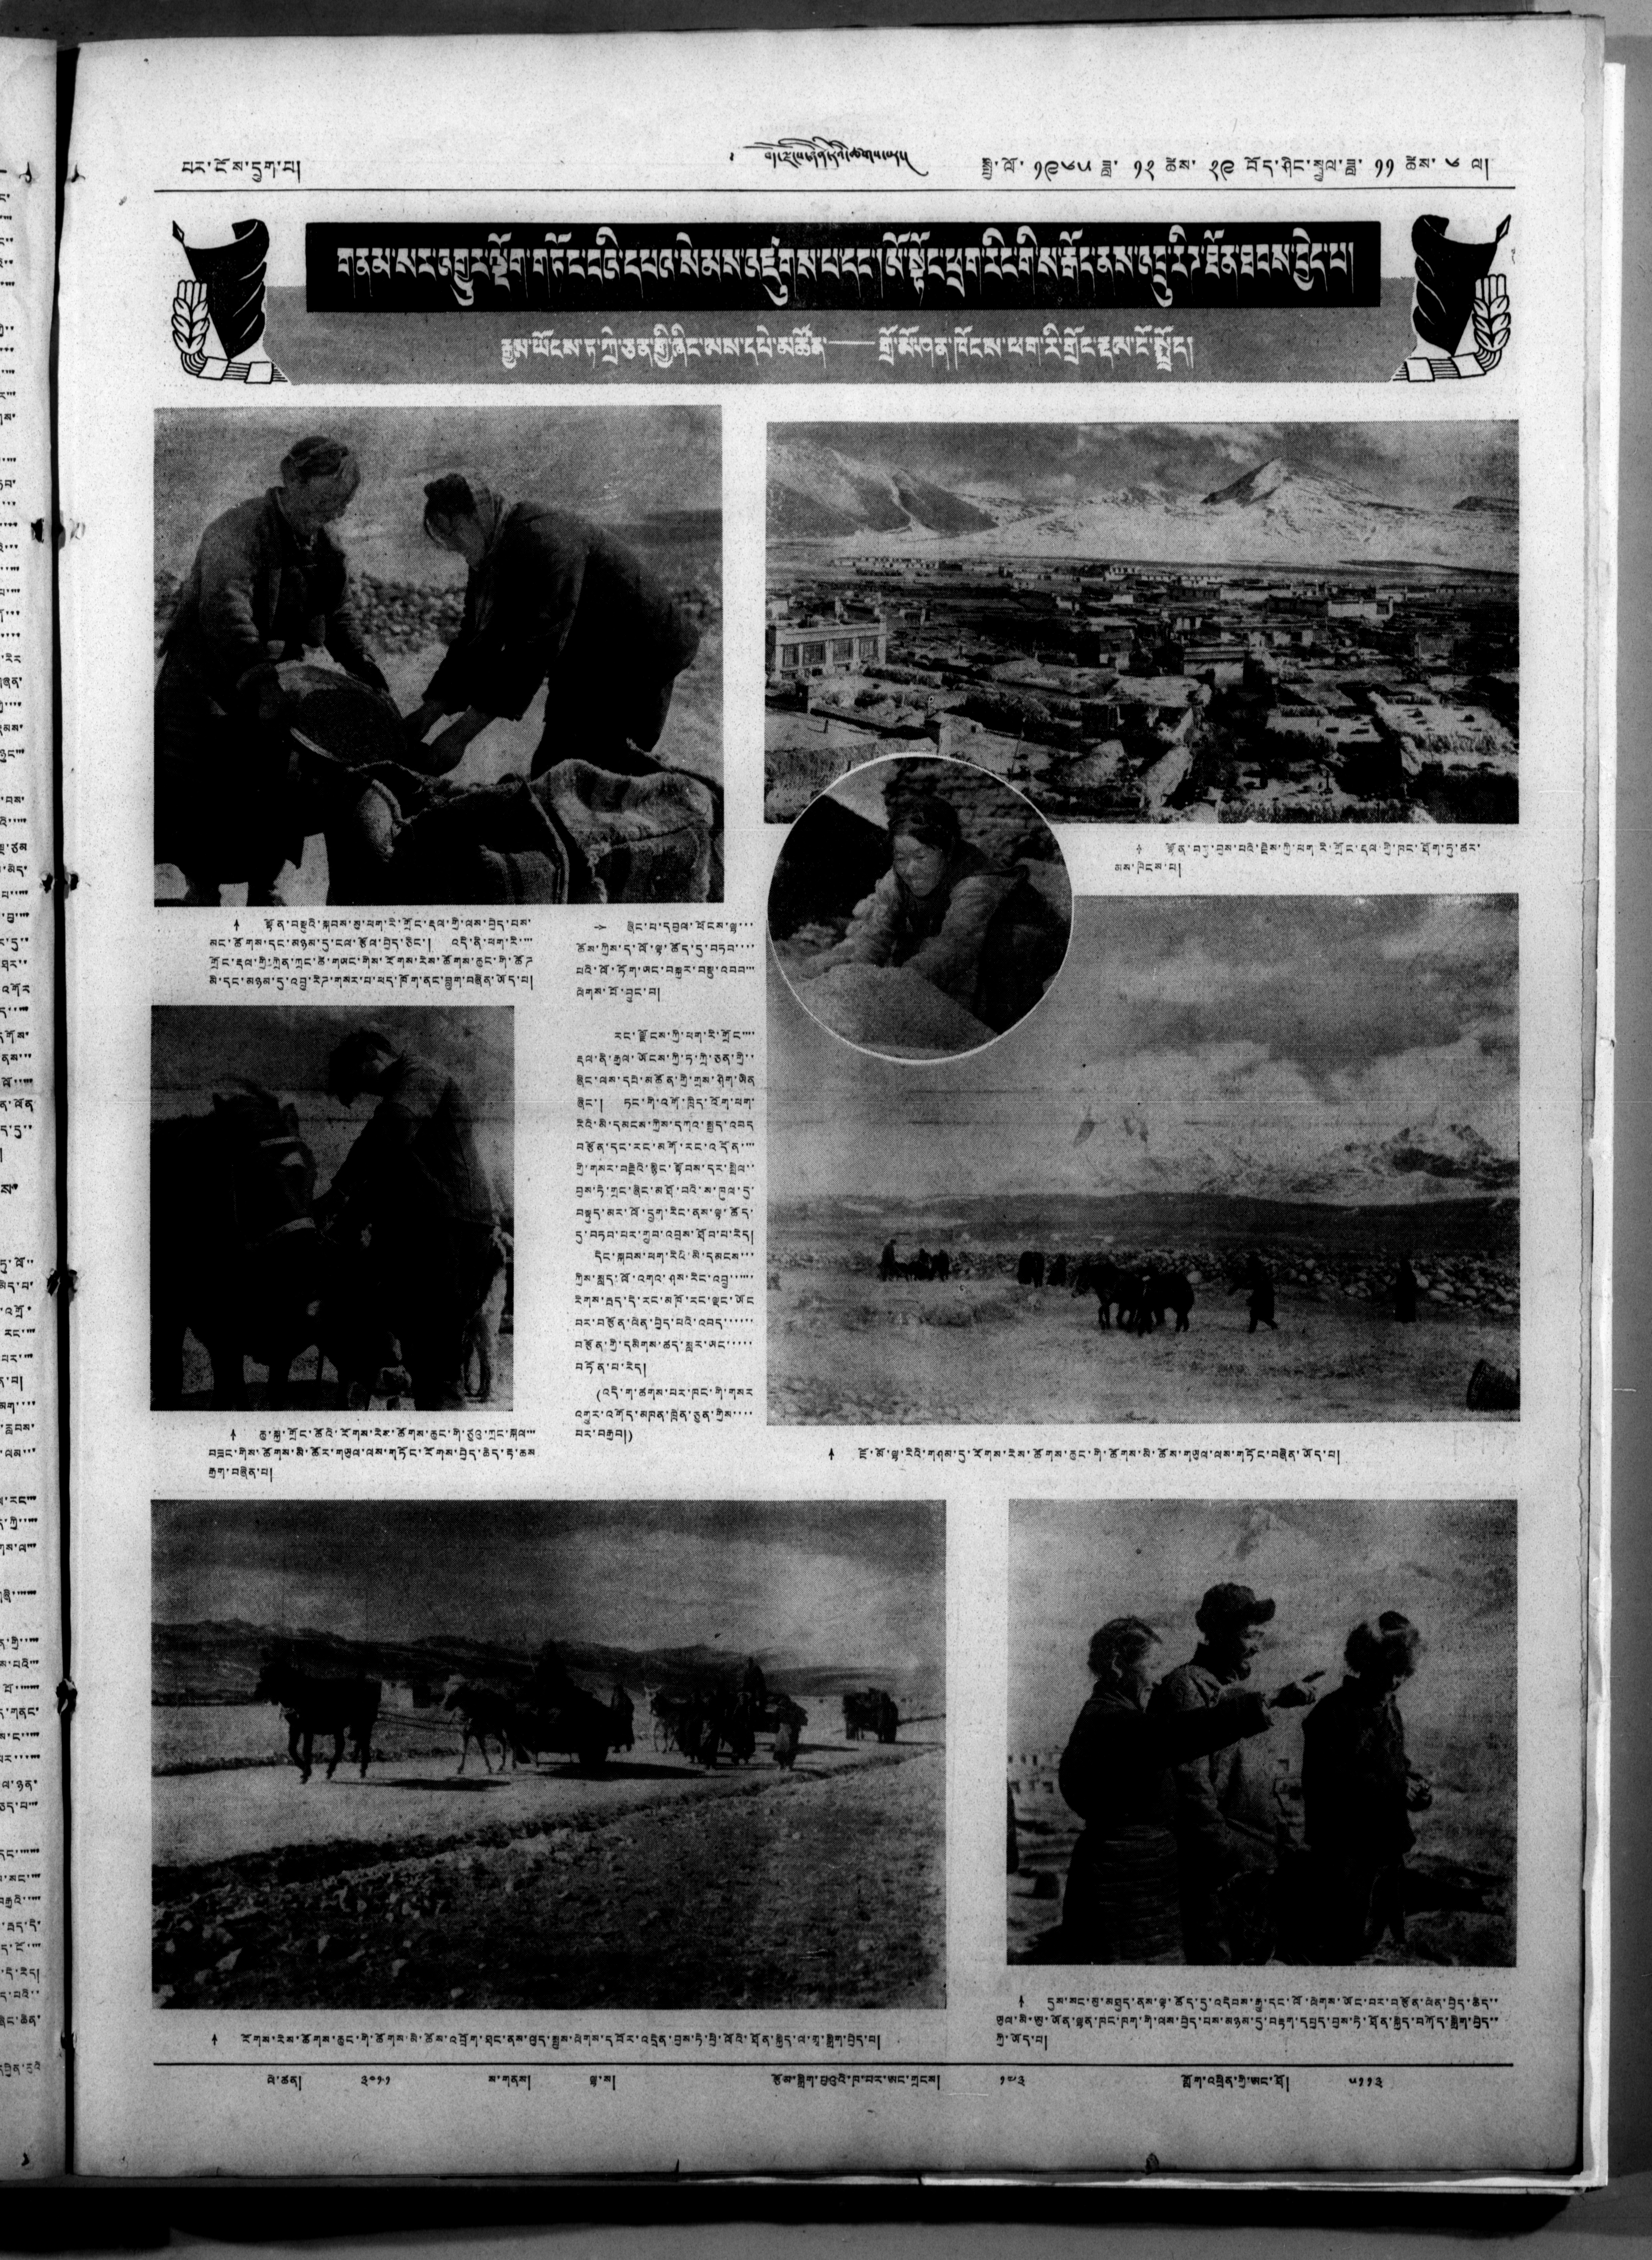པར་ངོས་དྲུག་པ། ༄༅། བོད་ལྗོངས་ཉིན་རེའི་ཚགས་པར། སྤྱི་ལོ་ ༡༩༦༥ ཟླ་ ༡༢ ཚེས་ ༢༩ བོད་ཤིང་སྦྲུལ་ཟླ་ ༡༡ ཚེས་ ༦ ལ།
གནམ་སར་འགྱུར་ལྡོག་གཏོང་བའི་དཔའ་སེམས་འཛུགས་པ་དང་། ལོ་སྟོང་ཕྲག་རིང་གི་ས་རྒོད་ནས་འབྲུ་རིཌ་ཐོན་ཐབས་བྱེད་པ།
རྒྱལ་ཡོངས་ཏ་ཀྲེ་ཅན་གྱི་ཞིང་ལས་དཔེ་མཚོན་ — གྲོ་མོ་ཤན་ཁོངས་ཕག་རི་གྲོང་རྡལ་ངོ་སྤྲོད།
↑ སྟོན་བསྡུའི་སྐབས་སུ་ཕག་རི་གྲོང་རྡལ་གྱི་ལས་བྱེད་པས་
མང་ཚོགས་དང་མཉམ་དུ་ངལ་རྩོལ་བྱེད་ཅིང་། འདི་ནི་ཕག་རི་་་་
གྲོང་རྡལ་གྱི་ཀྲེན་ཀྲང་ཚེ་གཡང་གིས་རོགས་རེས་ཚོགས་ཆུང་གི་ཚོཌ
མི་དང་མཉམ་དུ་འབྲུ་རིཌ་གསར་པ་ཕད་ཁོག་ནང་བླུག་བཞིན་ཡོད་པ།
↑ ཆུ་སྐྱ་གྲོང་ཚོའི་རོགས་རེས་ཚོགས་ཆུང་གི་ཙུའུ་ཀྲང་སྐལ་་་
བཟང་གིས་ཚོགས་མི་ཚོར་གཡུལ་ལས་གཏོང་རོགས་བྱེད་ཆེད་རྟ་ཆས
རྒྱག་བཞིན་པ།
↑ རོགས་རེས་ཚོགས་ཆུང་གི་ཚོགས་མི་ཚོས་འབྲོག་ཐང་ནས་ལུད་སྤུས་ལེགས་དབོར་འདྲེན་བྱས་ཏེ་ཕྱི་ལོའི་ཐོན་སྐྱེད་ལ་གྲྭ་སྒྲིག་བྱེད་པ།
→ ཞིང་པ་དབུལ་ཕོངས་ལྷ་་་
ཆོས་ཀྱིས་ད་ལོ་ལྟ་ཚོད་དུ་བཏབ་་་་
པའི་ལོ་ཏོག་ཡང་བསྐྱར་བསྡུ་འབབ་་་
ལེགས་པོ་བྱུང་བ།
རང་ལྗོངས་ཀྱི་ཕག་རི་གྲོང་་་་
རྡལ་ནི་རྒྱལ་ཡོངས་ཀྱི་ཏ་ཀྲེ་ཅན་གྱི་་
ཞིང་ལས་དཔེ་མཚོན་གྱི་གྲས་ཤིག་ཡིན
ཞིང་། ཏང་གི་འགོ་ཁྲིད་འོག་ཕག་
རིའི་མི་དམངས་ཀྱིས་དཀའ་སྤྱད་འབད་
བརྩོན་དང་རང་མགོ་རང་འདོན་་་་
གྱི་གསར་བརྗེའི་སྙིང་སྟོབས་དར་སྤེལ་་
བྱས་ཏེ་གྲང་ཞིང་མཐོ་བའི་ས་ཁུལ་དུ་
བསྟུད་མར་ལོ་དྲུག་རིང་ནས་ལྟ་ཚོད་
དུ་བཏབ་པར་གྲུབ་འབྲས་ཐོབ་པ་རེད།
དེང་སྐབས་ཕག་རིའི་མི་དམངས་་་
ཀྱིས་སླད་ལོ་འགའ་ཤས་རིང་འབྲུ་་་་་་
རིགས་རྦད་དེ་རང་མཁོ་རང་ལྡང་ཡོང
བར་བརྩོན་ལེན་བྱེད་པའི་འབད་་་་་་
བརྩོན་གྱི་དམིགས་ཚད་སླར་ཡང་་་་་
བཏོན་པ་རེད།
(འདི་ག་ཚགས་པར་ཁང་གི་གསར
འགྱུར་འགོད་མཁན་ཁྲེན་ཅུན་གྱིས་་་་
པར་བརྒྱབ།)
↑ སྟོན་བསྡུ་བྱས་པའི་རྗེས་ཀྱི་ཕག་རི་གྲོང་དལ་གྱི་ཁང་ཐོག་ཏུ་ཚར་
མས་ཁེངས་པ།
↑ ཇོ་མོ་ལྷ་རིའི་གཤམ་དུ་རོགས་རེས་ཚོགས་ཆུང་གི་ཚོགས་མི་ཚོས་གཡུལ་ལས་གཏོང་བཞིན་ཡོད་པ།
↑ དུས་སང་མུ་མཐུད་ནས་ལྟ་ཚོད་དུ་འདེབས་རྒྱུ་དང་ལོ་ལེགས་ཡོང་བར་བརྩོན་ལེན་བྱེད་ཆེད་་
ཡུལ་མི་ཨུ་ཡོན་ལྷན་ཁང་ཁག་གི་ལས་བྱེད་པས་མཉམ་དུ་བརྟག་དཔྱད་བྱས་ཏེ་ཐོན་སྐྱེད་བཀོད་སྒྲིག་བྱེད་་
ཀྱི་ཡོད་པ།
ལེ་ཚན།  ༣༠༡༡ ས་གནས། ལྷ་ས། རྩོམ་སྒྲིག་པུའུའི་ཁ་པར་ཨང་གྲངས། ༡༧༣ གློག་འཕྲིན་གྱི་ཨང་ཐོ། ༥༡༡༣
